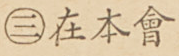㊂在本會
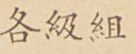各級組
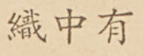織中有
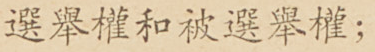選舉權和被選舉權；
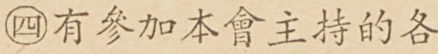㊃有參加本會主持的各
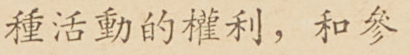種活動的權利，和參
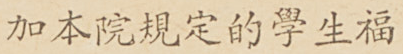加本院規定的學生福
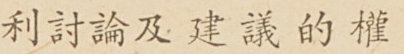利討論及建議的權
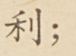利；
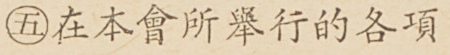㊄在本會所舉行的各項
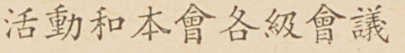活動和本會各級會議
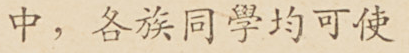中，各族同學均可使
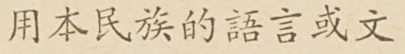用本民族的語言或文
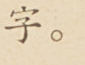字。
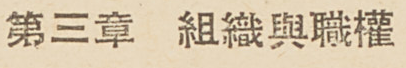第三章 組織與職權
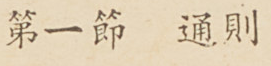第一節 通則
